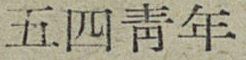五四靑年
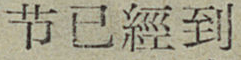节已經到
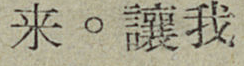来。讓我
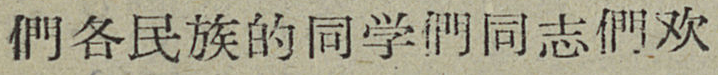們各民族的同学們同志們欢
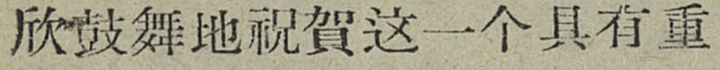欣鼓舞地祝賀这一个具有重
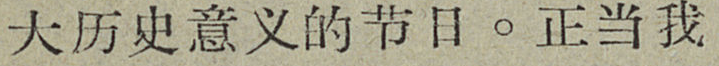大历史意义的节日。正当我
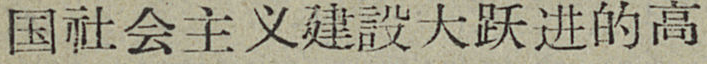国社会主义建設大跃进的高
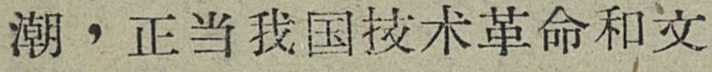潮，正当我国技术革命和文
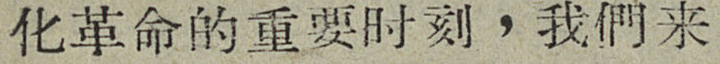化革命的重要时刻，我們来
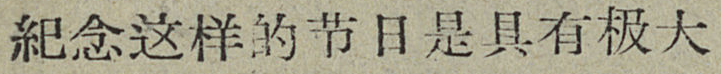紀念这样的节日是具有极大
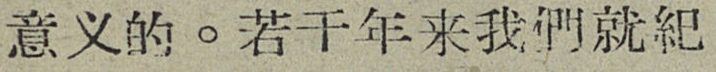意义的。若干年来我們就紀
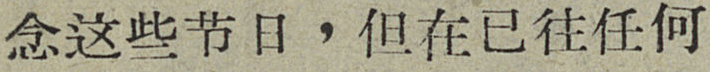念这些节日，但在已往任何
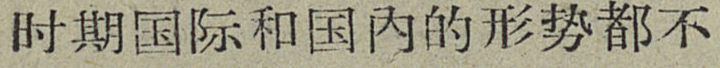时期国际和国内的形势都不
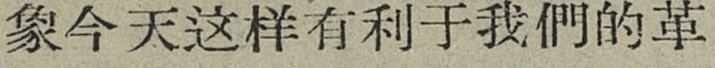象今天这样有利于我們的革
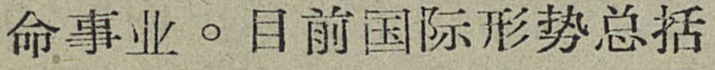命事业。目前国际形势总括
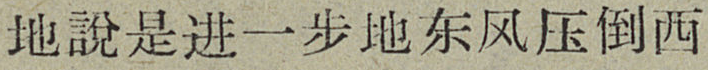地說是进一步地东风压倒西
